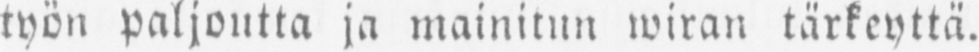työn paljoutta ja mainitun wiran tärkeyttä.
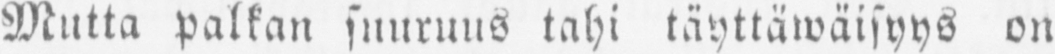Mutta palkan suuruus tahi täyttäwäisyys on
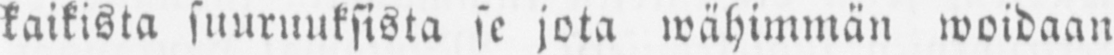kaikista suuruuksista se jota wähimmän woidaan
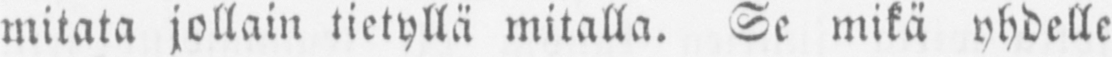mitata jollain tietyllä mitalla. Se mikä yhdelle
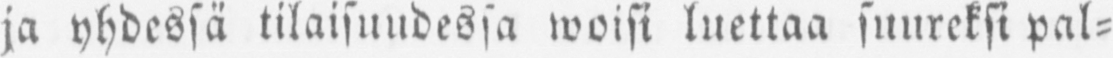ja yhdessä tilaisuudessa woisi luettaa suureksi pal-
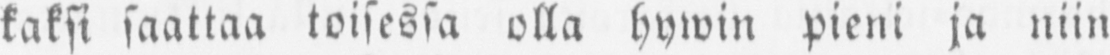kaksi saattaa toisessa olla hywin pieni ja niin
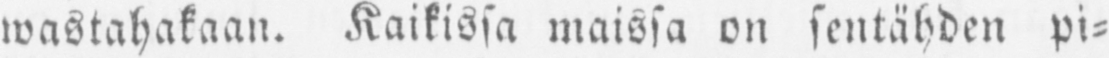wastahakaan. Kaikissa maissa on sentähden pi-
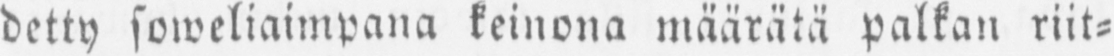detty soweliaimpana keinona määrätä palkan riit-
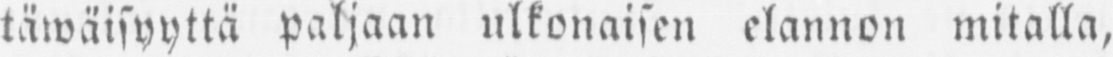täwäisyyttä paljaan ulkonaisen elannon mitalla,
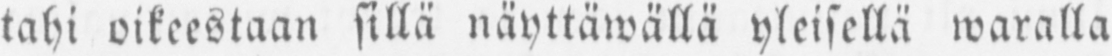tahi oikeestaan sillä näyttäwällä yleisellä waralla
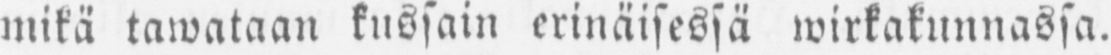mikä tawataan kussain erinäisessä wirkakunnassa.
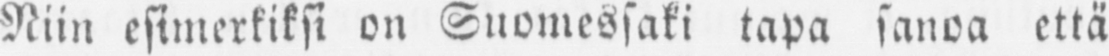Niin esimerkiksi on Suomessaki tapa sanoa että
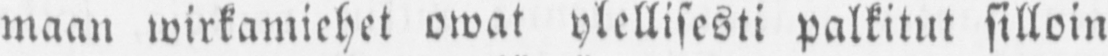maan wirkamiehet owat ylellisesti palkitut silloin
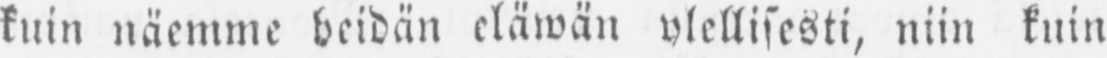kuin näemme heidän eläwän ylellisesti, niin kuin
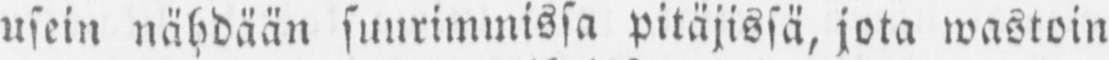usein nähdään suurimmissa pitäjissä, jota wastoin
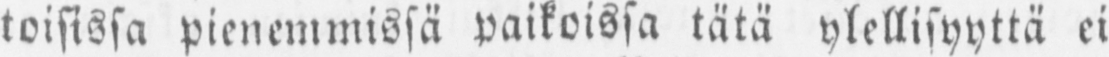toisissa pienemmissä paikoissa tätä ylellisyyttä ei
